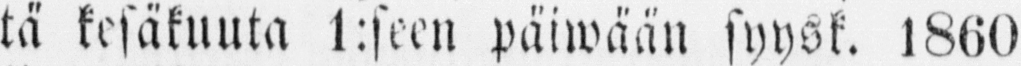tä kesäkuuta 1:seen päiwään syysk. 1860
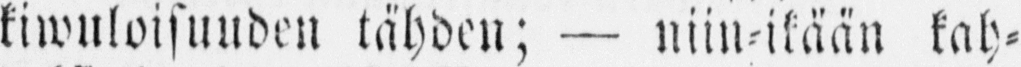kiwuloisunden tähden; — niin-ikään kah-
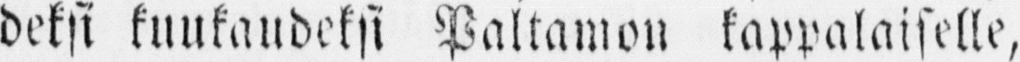deksi kuukaudeksi Paltamon kappalaiselle,
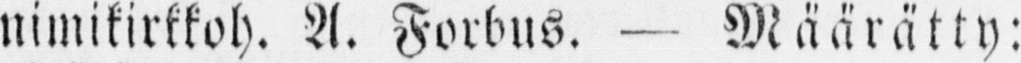nimikirkkoh. A. Forbus. — Määrätty:
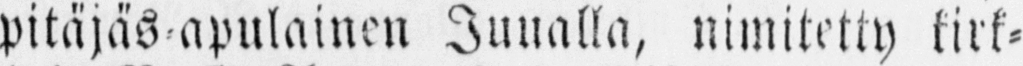pitäjäs-apulainen Junalla, nimitetty kirk-
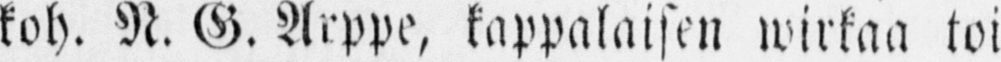koh. N. G. Arppe, kappalaisen wirkaa toi-
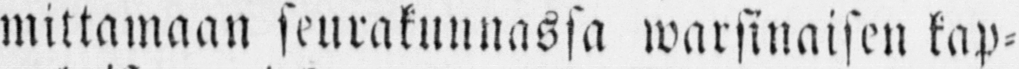mittamaan seurakunnassa warsinaisen kap-
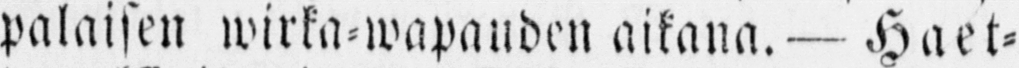palaisen wirka-wapauden aikana. — Haet-
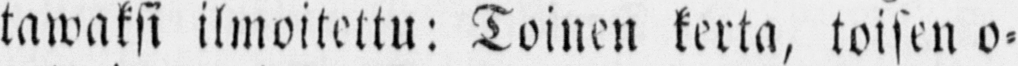tawaksi ilmoitettu: Toinen kerta, toisen o-
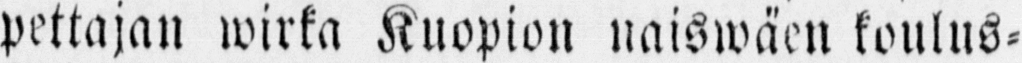pettajan wirka Kuopion naiswäen koulus-
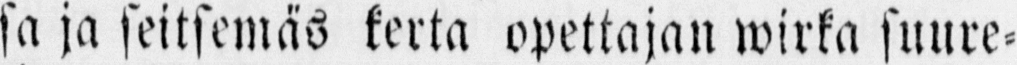sa ja seitsemäs kerta opettajan wirka suure-
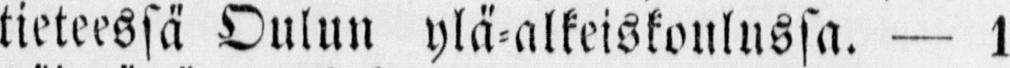tieteessä Oulun ylä-alkeiskoulussa. — 1
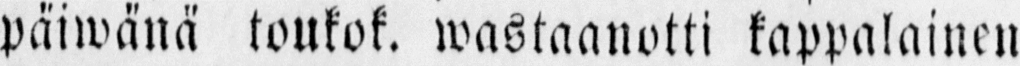päiwänä toukok. wastaanotti kappalainen
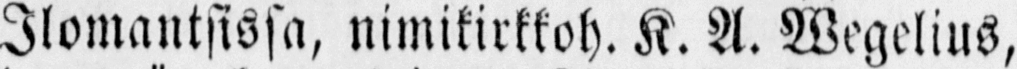Ilomantsissa, nimikirkkoh. K. A. Wegelius,
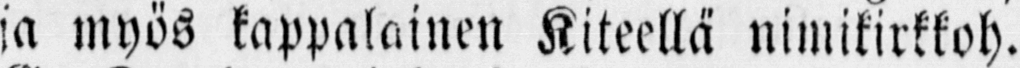ja myös kappalainen Kiteellä nimikirkkoh.
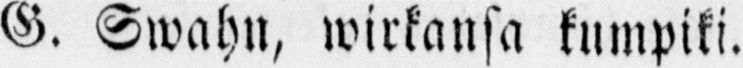G. Swahn, wirkansa kumpiki.
